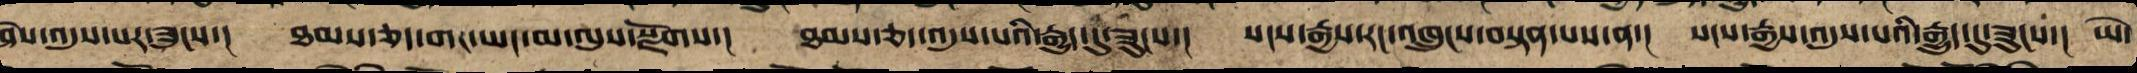ཤེས་འདུས་པར་ཟུངས་།  ཐམས་ཅད་གང་ཡང་མ་ལུས་སྫོགས་།  ཐམས་ཅད་འདུས་པའི་རྒྱུད་དུ་ཟུངས་།  སངས་རྒྱས་རང་འཁྲུངས་བསྟན་པས་ན་།  སངས་རྒྱས་འདུས་པའི་རྒྱུད་དུ་ཟུངས་།  ཡེ་
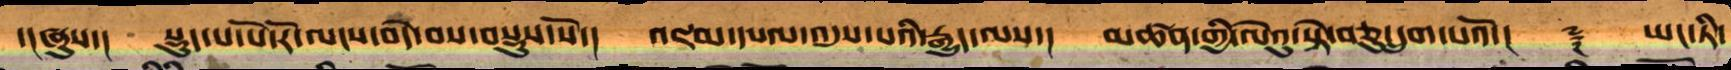་།ཞུས་། སྡུད་པ་པོ་རོ་ལངས་བདེ་བས་བསྡུས་སོ་།   འཇམ་དཔལ་འདུས་པའི་རྒྱུད་ལས་།  མཚན་གྱི་ལེའུ་སྟེ་བཅུ་དྲུག་པའོ་།།    ༈  ཡང་ཏི་
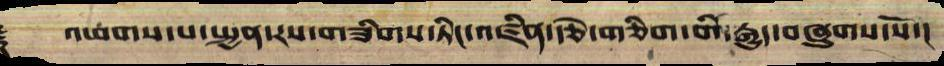༈ འཕགས་པ་སྤྱན་རས་གཟིགས་ཏིང་འཛིན་རྩེ་གཅིག་གི་རྒྱུད་བཞུགས་སོ་།
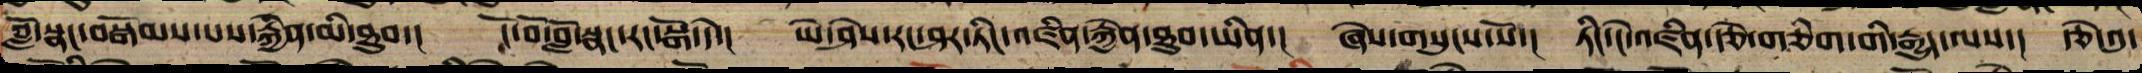བློ་སྣང་བསྒོམས་པས་རྐྱེན་མི་ཐུབ་།  ངོ་བོ་བློ་སྣང་རང་སྒོ་དེ་།  ཡེ་ཤེས་རང་ཤར་ཏིང་འཛིན་རྐྱེན་ཐུབ་ཡིན་།  ཞེས་གསུངས་སོ་།  ཏིང་ངེ་འཛིན་རྩེ་གཅིག་གི་རྒྱུད་ལས་། རྩེ་༡་
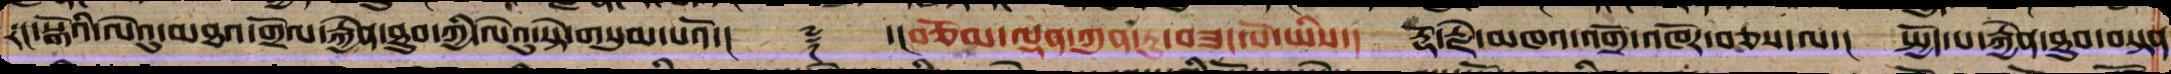རང་སྒོའི་ལེའུ་མཐའ་གྲོལ་རྐྱེན་ཐུབ་ཀྱི་ལེའུ་སྟེ་གསུམ་པའོ་།།    ༈   ་།བཅོམ་ལྡན་ཀུན་ཏུ་བཟང་པོ་ཡིས་།  རྡོ་རྗེ་མཁའ་འགྲོ་འཁོར་བཅས་ལ་།  སྤྱོད་པ་རྐྱེན་ཐུབ་བསྟན
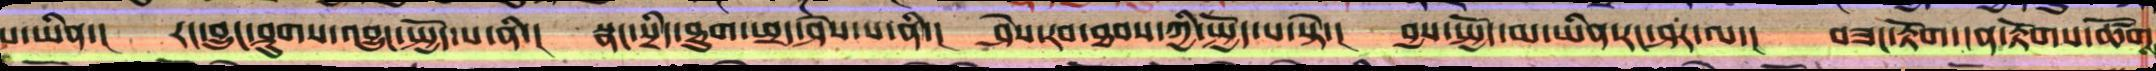པ་ཡིན་།   རང་བྱུང་ཤུགས་འབྱུང་སྤྱོད་པ་ནི་།  སྣང་སྲིད་ཐུག་ཕྲད་ཤེས་པ་ནི་།  ཤེས་རབ་ཐབས་ཀྱི་སྤྱོད་པ་སྟེ་།  བྱས་སྤྱོད་མ་ཡིན་རང་ཤར་ལ་།  བཟང་རྟོག་ངན་རྟོགས་ཚོག
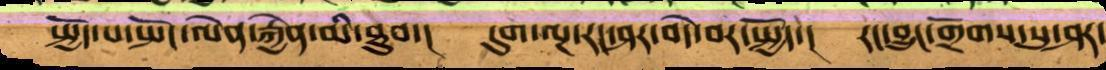སྤྱོད་པ་སྤོང་ལེན་རྐྱེན་མི་ཐུབ་།  དུག་ལྔ་རང་ཤར་བདེ་བར་སྤྱོད་། རང་བྱུང་གྲོགས་སུ་ཤར་
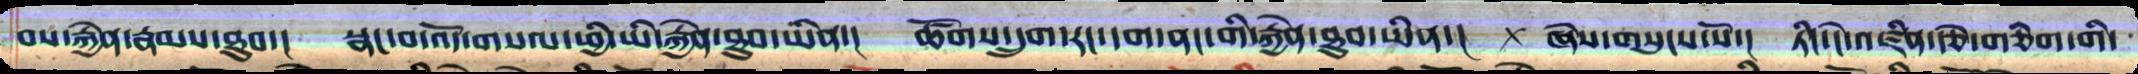བས་རྐྱེན་རྣམས་ཐུབ་། སྣང་བ་འོད་གསལ་ཕྱི་ཡི་རྐྱེན་ཐུབ་ཡིན་། ཚོགས་དྲུག་རང་དག་ནང་གི་རྐྱེན་ཐུབ་ཡིན་། ཞེས་གསུངས་སོ་། ཏིང་ངེ་འཛིན་རྩེ་གཅིག་གི་
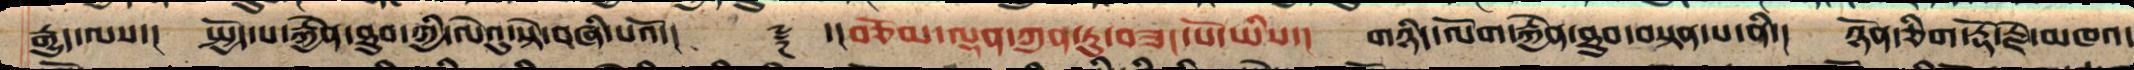རྒྱུད་ལས་།  སྤྱོད་པ་རྐྱེན་ཐུབ་ཀྱི་ལེའུ་སྟེ་བཞི་པའོ་།།    ༈  ་།།བཅོམ་ལྡན་ཀུན་ཏུ་བཟང་པོ་ཡིས་།  གཉིད་ལོག་རྐྱེན་ཐུབ་བསྟན་པ་ནི་།  ཉོན་ཅིག་རྡོ་རྗེ་མཁའ་
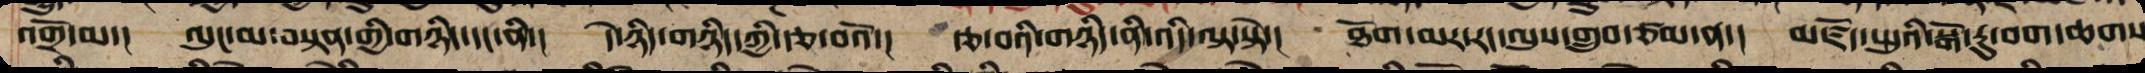འགྲོ་མ་།  ལུང་མ་བསྟན་གྱི་གཉིད་དང་ནི་།  དེ་ཉིད་གཉིད་ཀྱི་རྩ་བའོ་།  རྩ་བའི་གཉིད་ནི་འདི་ལྟ་སྟེ་།  ཐོག་མར་རང་ལུས་གྲུབ་ཙ་ན་།  མཛོད་སྤུའི་སྒོ་རུ་བག་ཆགས
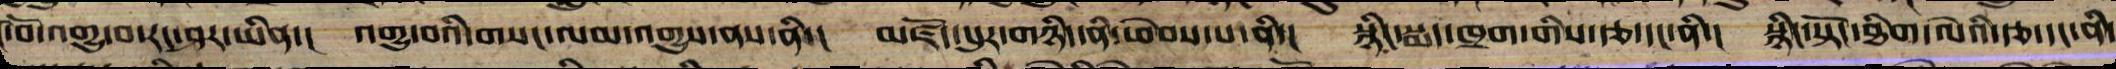ངོ་བོ་འགྱུ་བ་རང་ཤར་ཡིན་།  འགྱུ་བའི་གསང་ལམ་འགྱུས་ནས་ནི་།  མཛོད་སུར་གཉིད་ནི་ཕེབས་པ་ནི་།  སྙིང་སྨད་ཁྲག་གི་རྩ་དང་ནི་། སྙིང་སྟོད་ཐིག་ལེའི་རྩ་དང་ནི་
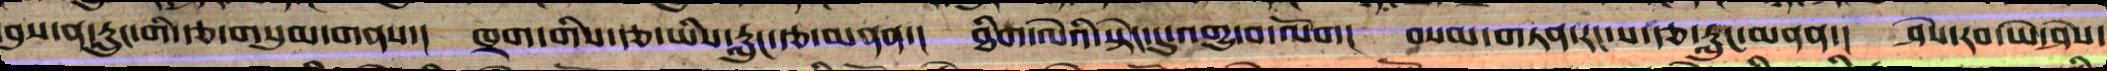བུས་ན་རླུང་གི་རྩ་གསུམ་གནས་།  ཁྲག་གིས་རྩ་ཡིས་རླུང་རྩ་མནན་།   ཐིག་ལེའི་སྟེང་དུ་འགྱུ་བ་ལོག།  བསམ་གཏན་རང་ས་རྩ་རླུང་མནན་།  ཤེས་རབ་ཡེ་ཤེས་
